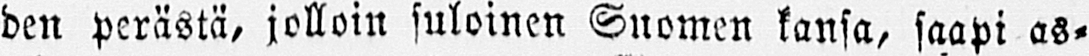den perästä, jolloin suloinen Suomen kansa, saapi as-
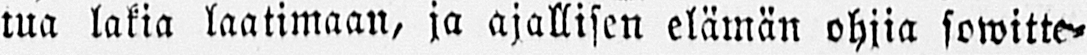tua lakia laatimaan, ja ajallisen elämän ohjia sowitte-
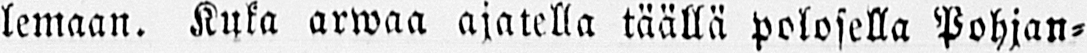lemaan. Kuka arwaa ajatella täällä Polosellä Pohjan-
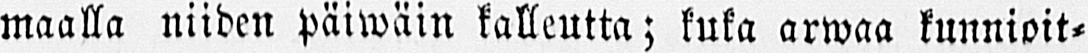maalla niiden päiwäin kalleutta; kuka arwaa kunnioit-
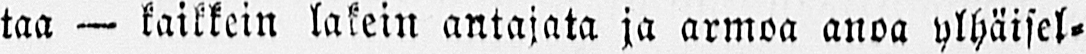taa — kaikkein lakein antajata ja armoa anoa ylhäisel-
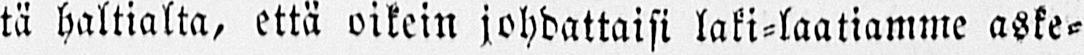tä haltialta, että oikein johdattaisi laki-laatiamme aske-
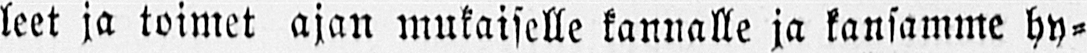leet ja toimet ajan mukaiselle kannalle ja kansamme hy-
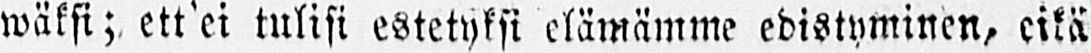wäksi; ett'ei tulisi estetyksi elämämme edistyminen, eikä
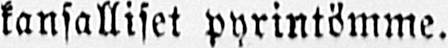kansalliset pyrintömme.
